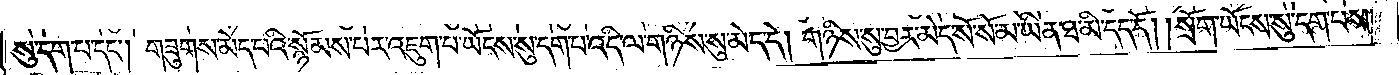སུ་དག་པ་དང༌། གཟུགས་མེད་པའི་སྙོམས་པར་འཇུག་པ་ཡོངས་སུ་དག་པ་འདི་ལ་གཉིས་སུ་མེད་དེ། གཉིས་སུ་བྱར་མེད་སོ་སོ་མ་ཡིན་ཐ་མི་དད་དོ། །སྲོག་ཡོངས་སུ་དག་པས་
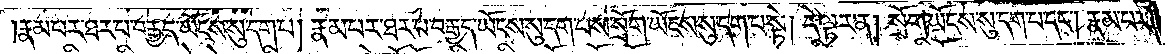རྣམ་པར་ཐར་པ་བརྒྱད་ཡོངས་སུ་དག་པ། རྣམ་པར་ཐར་པ་བརྒྱད་ཡོངས་སུ་དག་པས་སྲོག་ཡོངས་སུ་དག་པ་སྟེ། དེ་ལྟར་ན། སྲོག་ཡོངས་སུ་དག་པ་དང༌། རྣམ་པར་
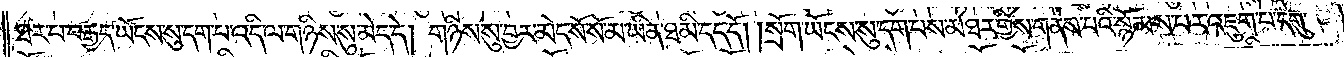ཐར་པ་བརྒྱད་ཡོངས་སུ་དག་པ་འདི་ལ་གཉིས་སུ་མེད་དེ། གཉིས་སུ་བྱར་མེད་སོ་སོ་མ་ཡིན་ཐ་མི་དད་དོ། །སྲོག་ཡོངས་སུ་དག་པས་མཐར་གྱིས་གནས་པའི་སྙོམས་པར་འཇུག་པ་དགུ་
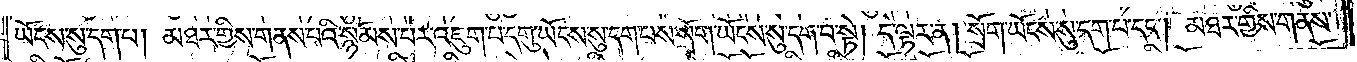ཡོངས་སུ་དག་པ། མཐར་གྱིས་གནས་པའི་སྙོམས་པར་འཇུག་པ་དགུ་ཡོངས་སུ་དག་པས་སྲོག་ཡོངས་སུ་དག་པ་སྟེ། དེ་ལྟར་ན། སྲོག་ཡོངས་སུ་དག་པ་དང༌། མཐར་གྱིས་གནས་
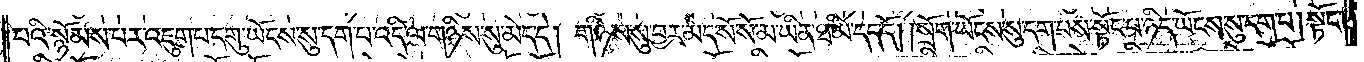པའི་སྙོམས་པར་འཇུག་པ་དགུ་ཡོངས་སུ་དག་པ་འདི་ལ་གཉིས་སུ་མེད་དེ། གཉིས་སུ་བྱར་མེད་སོ་སོ་མ་ཡིན་ཐ་མི་དད་དོ། །སྲོག་ཡོངས་སུ་དག་པས་སྟོང་པ་ཉིད་ཡོངས་སུ་དག་པ། སྟོང་
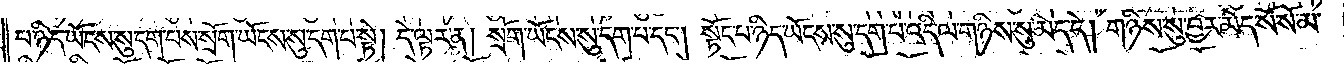པ་ཉིད་ཡོངས་སུ་དག་པས་སྲོག་ཡོངས་སུ་དག་པ་སྟེ། དེ་ལྟར་ན། སྲོག་ཡོངས་སུ་དག་པ་དང༌། སྟོང་པ་ཉིད་ཡོངས་སུ་དག་པ་འདི་ལ་གཉིས་སུ་མེད་དེ། གཉིས་སུ་བྱར་མེད་སོ་སོ་མ་
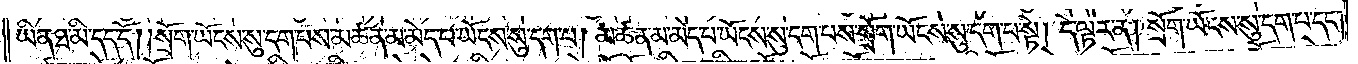ཡིན་ཐ་མི་དད་དོ། །སྲོག་ཡོངས་སུ་དག་པས་མཚན་མ་མེད་པ་ཡོངས་སུ་དག་པ། མཚན་མ་མེད་པ་ཡོངས་སུ་དག་པས་སྲོག་ཡོངས་སུ་དག་པ་སྟེ། དེ་ལྟར་ན། སྲོག་ཡོངས་སུ་དག་པ་དང༌།
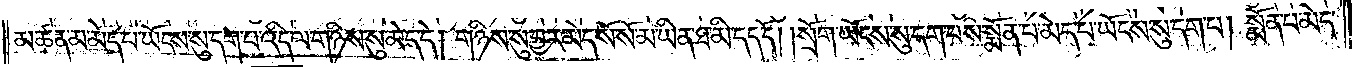མཚན་མ་མེད་པ་ཡོངས་སུ་དག་པ་འདི་ལ་གཉིས་སུ་མེད་དེ། གཉིས་སུ་བྱར་མེད་སོ་སོ་མ་ཡིན་ཐ་མི་དད་དོ། །སྲོག་ཡོངས་སུ་དག་པས་སྨོན་པ་མེད་པ་ཡོངས་སུ་དག་པ། སྨོན་པ་མེད་
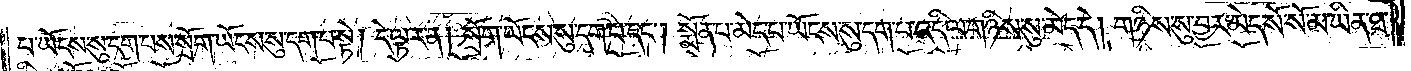པ་ཡོངས་སུ་དག་པས་སྲོག་ཡོངས་སུ་དག་པ་སྟེ། དེ་ལྟར་ན། སྲོག་ཡོངས་སུ་དག་པ་དང༌། སྨོན་པ་མེད་པ་ཡོངས་སུ་དག་པ་འདི་ལ་གཉིས་སུ་མེད་དེ། གཉིས་སུ་བྱར་མེད་སོ་སོ་མ་ཡིན་ཐ་
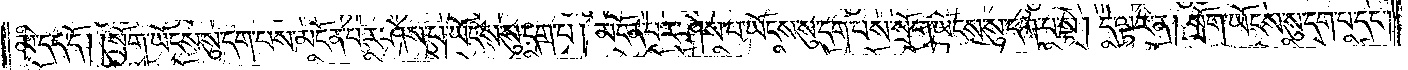མི་དད་དོ། །སྲོག་ཡོངས་སུ་དག་པས་མངོན་པར་ཤེས་པ་ཡོངས་སུ་དག་པ། མངོན་པར་ཤེས་པ་ཡོངས་སུ་དག་པས་སྲོག་ཡོངས་སུ་དག་པ་སྟེ། དེ་ལྟར་ན། སྲོག་ཡོངས་སུ་དག་པ་དང༌།
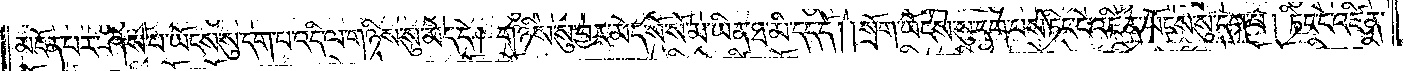མངོན་པར་ཤེས་པ་ཡོངས་སུ་དག་པ་འདི་ལ་གཉིས་སུ་མེད་དེ། གཉིས་སུ་བྱར་མེད་སོ་སོ་མ་ཡིན་ཐ་མི་དད་དོ། །སྲོག་ཡོངས་སུ་དག་པས་ཏིང་ངེ་འཛིན་ཡོངས་སུ་དག་པ། ཏིང་ངེ་འཛིན་
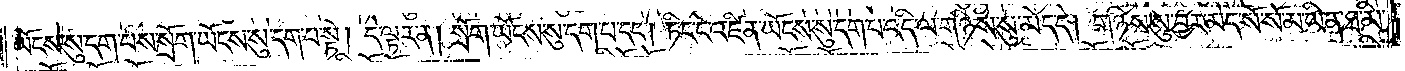ཡོངས་སུ་དག་པས་སྲོག་ཡོངས་སུ་དག་པ་སྟེ། དེ་ལྟར་ན། སྲོག་ཡོངས་སུ་དག་པ་དང༌། ཏིང་ངེ་འཛིན་ཡོངས་སུ་དག་པ་འདི་ལ་གཉིས་སུ་མེད་དེ། གཉིས་སུ་བྱར་མེད་སོ་སོ་མ་ཡིན་ཐ་མི་
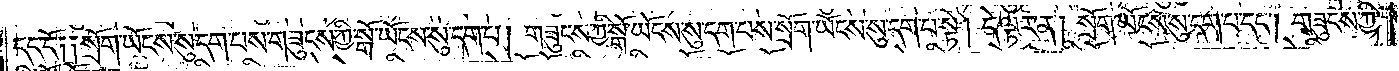དད་དོ༑ ༑སྲོག་ཡོངས་སུ་དག་པས་གཟུངས་ཀྱི་སྒོ་ཡོངས་སུ་དག་པ། གཟུངས་ཀྱི་སྒོ་ཡོངས་སུ་དག་པས་སྲོག་ཡོངས་སུ་དག་པ་སྟེ། དེ་ལྟར་ན། སྲོག་ཡོངས་སུ་དག་པ་དང༌། གཟུངས་ཀྱི་
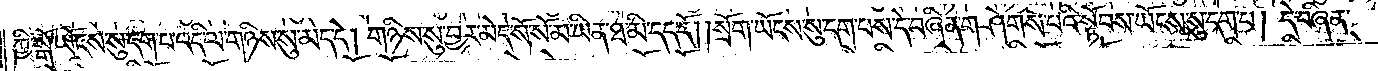ཀྱི་སྒོ་ཡོངས་སུ་དག་པ་འདི་ལ་གཉིས་སུ་མེད་དེ། གཉིས་སུ་བྱར་མེད་སོ་སོ་མ་ཡིན་ཐ་མི་དད་དོ། །སྲོག་ཡོངས་སུ་དག་པས་དེ་བཞིན་གཤེགས་པའི་སྟོབས་ཡོངས་སུ་དག་པ། དེ་བཞིན་
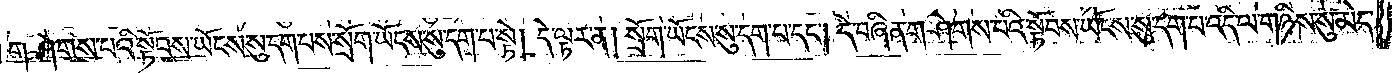གཤེགས་པའི་སྟོབས་ཡོངས་སུ་དག་པས་སྲོག་ཡོངས་སུ་དག་པ་སྟེ། དེ་ལྟར་ན། སྲོག་ཡོངས་སུ་དག་པ་དང༌། དེ་བཞིན་གཤེགས་པའི་སྟོབས་ཡོངས་སུ་དག་པ་འདི་ལ་གཉིས་སུ་མེད་
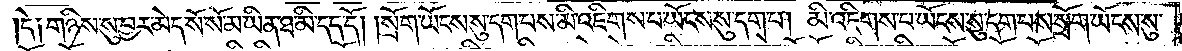དེ༑ གཉིས་སུ་བྱར་མེད་སོ་སོ་མ་ཡིན་ཐ་མི་དད་དོ། །སྲོག་ཡོངས་སུ་དག་པས་མི་འཇིགས་པ་ཡོངས་སུ་དག་པ། མི་འཇིགས་པ་ཡོངས་སུ་དག་པས་སྲོག་ཡོངས་སུ་
